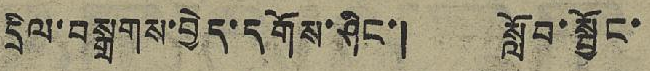དྲིལ་བསྒྲགས་བྱེད་དགོས་ཤིང་། སློབ་སྦྱོང་
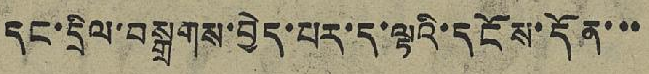དང་དྲིལ་བསྒྲགས་བྱེད་པར་ད་ལྟའི་དངོས་དོན་་་
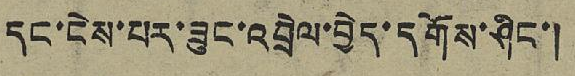དང་ངེས་པར་ཟུང་འབྲེལ་བྱེད་དགོས་ཤིང་།
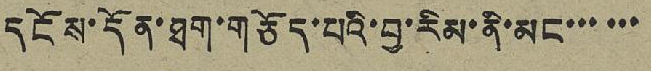དངོས་དོན་ཐག་གཅོད་པའི་བྱ་རིམ་ནི་མང་་་་་་
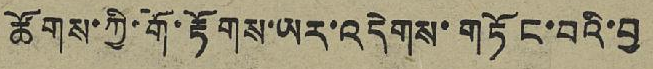ཚོས་ཀྱི་གོ་རྟོགས་ཡར་འདེགས་གཏོང་བའི་བྱ
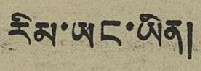རིམ་ཡང་ཡིན།
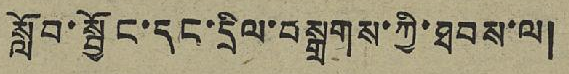སློབ་སྦྱོང་དང་དྲིལ་བསྒྲགས་ཀྱི་ཐབས་ལ།
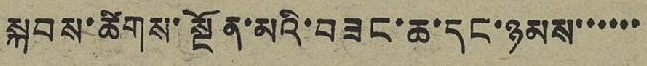སྐབས་ཚིགས་སྔོན་མའི་བཟང་ཆ་དང་ཉམས་་་་་་
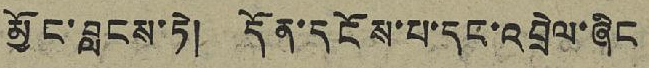མྱོང་བླངས་ཏེ། དོན་དངོས་པ་དང་འབྲེལ་ཞིང
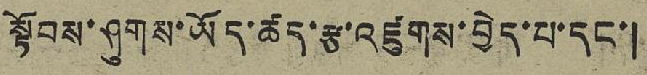སྟོབས་ཤུགས་ཡོད་ཚད་རྩ་འཛུགས་བྱེད་པ་དང་།
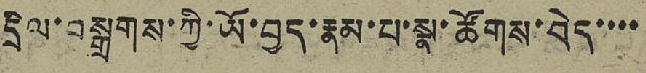དྲིལ་བསྒྲགས་ཀྱི་ཡོ་བྱད་རྣམ་པ་སྣ་ཚོགས་བེད་་་་
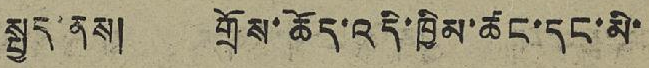སྤྱད་ནས། གྲོས་ཆོད་འདི་ཁྱིམ་ཚང་དང་མི་
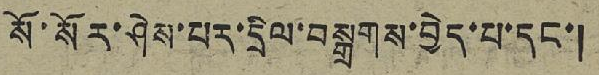སོ་སོར་ཤེས་པར་དྲིལ་བསྒྲགས་བྱེད་པ་དང་།
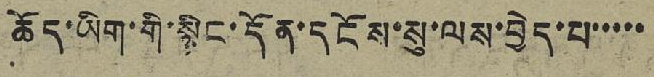ཆོད་ཡིག་གི་སྙིང་དོན་དངོས་སུ་ལས་བྱེད་པ་་་་་
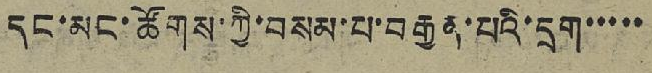དང་མང་ཚོགས་ཀྱི་བསམ་པ་བརྒྱན་པའི་དྲག་་་་་
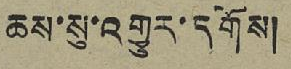ཆས་སུ་འགྱུར་དགོས།
